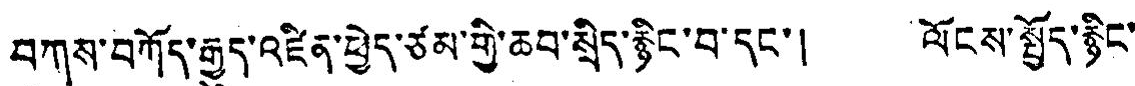བཀས་བཀོད་རྒྱུད་འཛིན་ཕྱེད་ཙམ་གྱི་ཆབ་སྲིད་རྙིང་བ་དང་། ལོངས་སྤྱོད་རྙིང་
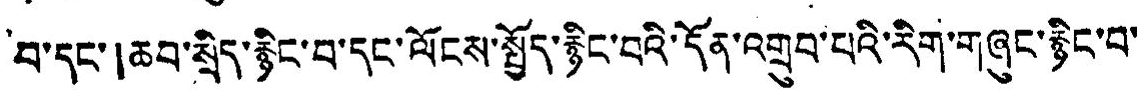བ་དང་།ཆབ་སྲིད་རྙིང་བ་དང་ལོངས་སྤྱོད་རྙིང་བའི་དོན་འགྲུབ་པའི་རིག་གཞུང་རྙིང་བ་
